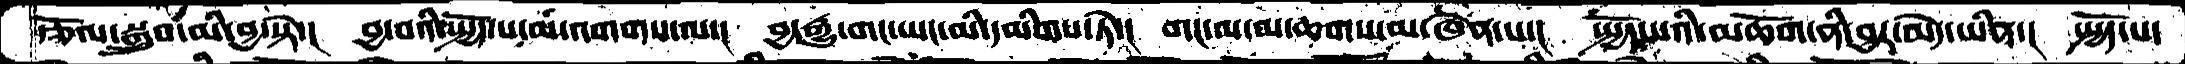རྩོལ་སྒྲུབ་མི་བྱ་སྟེ་།  བྱ་བའི་སྤྱོད་པ་མ་འགགས་ལ་།  བྱ་རྒྱུ་གང་ཡང་མི་དམིགས་ཏེ་།  གང་ལ་མ་ཆགས་མ་ཞེན་པ་།  སྤྱོད་པའི་མཆོག་ནི་བྱར་མེད་ཡིན་།  སྤྱོད་པ་
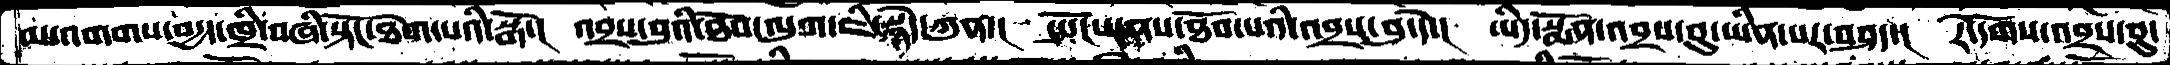མ་འགགས་བདྱད་ཁྲི་བཞི་སྟོང་ཐེག་པའི་སྒོ་།  འབྲས་བུའི་ཐོབ་ལུག་ཇི་སྙེད་ཀུན་།  སྤོངས་ནས་ཐོབ་པའི་འབྲས་བུ་དེ་།  ཡིད་སྨོན་འབྲས་བུ་ཡིན་པར་བཤད་།  རེ་དོགས་འབྲས་བུ་
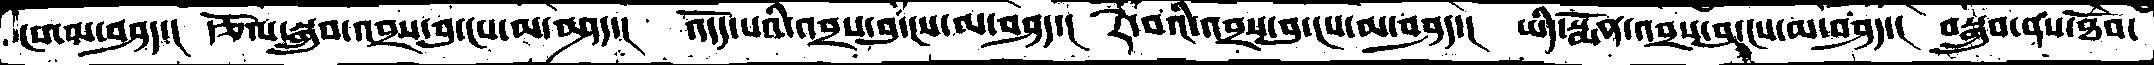ངས་མ་བཤད་།  རྩོལ་སྒྲུབ་འབྲས་བུ་ངས་མ་བཤད་།  འདོད་པའི་འབྲས་བུ་ངས་མ་བཤད་།  རེ་བའི་འབྲས་བུ་ངས་མ་བཤད་།  ཡིད་སྨོན་འབྲས་བུ་ངས་མ་བཤད་།  བསྒྲུབ་ནས་ཐོབ་
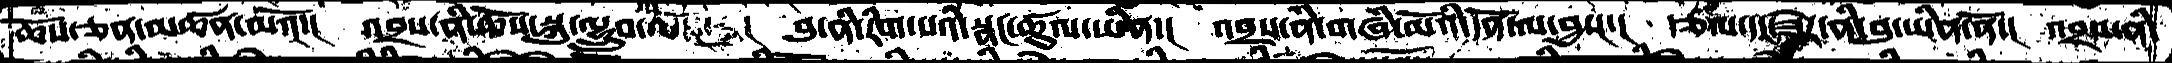ཆོས་ཅན་མཚན་མའོ་།  འབྲས་ནི་ཆོས་སྐུ་ལྷྲུབ་ལ  །  བུ་ནི་རིག་པའི་སྣང་ཚུལ་ཡིན་།  འབྲས་ནི་གཞི་མོའི་དོན་ལ་བྱ་།་།   རྩལ་དང་ཟེར་ནི་བུ་ཡིན་ནོ་།  འབྲས་ནི་
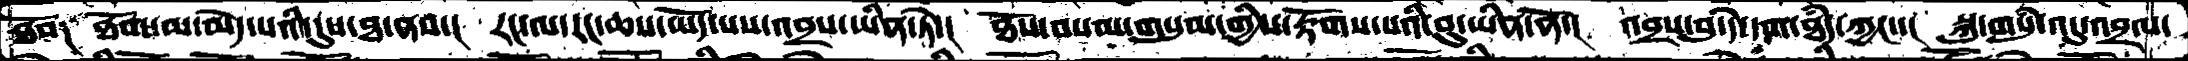ཐོབ༑  ཐོག་མ་མེད་པའི་དུས་ཐ་ནས་།  རང་ལ་རང་ཆས་ཡོད་པས་འབྲས་ཡིན་ཏེ་།  ཐོས་བསམ་གསུམ་གྱིས་རྟོགས་པའི་བུ་ཡིན་ནོ་།  འབྲས་བུ་དེ་དག་ཐདཾ་ཀྱང་་།  སྐུ་གསུཾ་འདུ་འབྲལ་
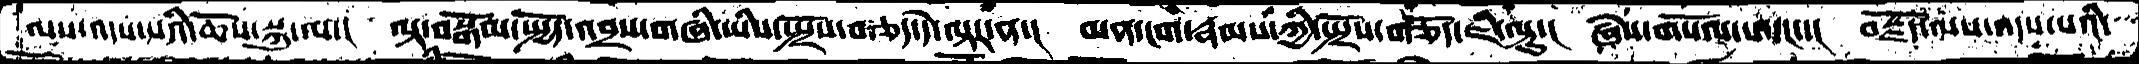ལས་འདས་པའི་ཆོས་སྐུ་ལ་།  ལྟ་བསྒོམ་སྤྱོད་འབྲས་གཞི་ཡིས་སྤྲོས་བཅད་དེ་ལྟར་ན་།  མན་ངག་རྣམས་ཀྱི་སྤྲོས་གཅོད་ཇི་ལྟུ་།  ཞེས་གསོལ་པ་དང་་།  བརྗོད་ལས་འདས་པའི་
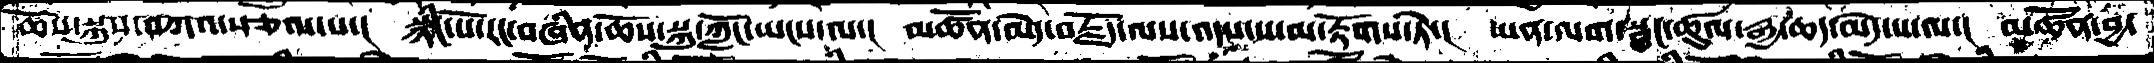ཆོས་སྐུའི་བཀའ་སྩལ་པ་།  སྙིང་པོ་རང་བཞིན་ཆོས་སྐུ་ཀློང་ཡངས་ལ་།  མཚོན་མེད་བརྗོད་ལས་འདས་པ་མ་རྟོགས་ཏེ་།  ཡན་ལག་སྦྱང་ཚུལ་རྒྱ་ཆད་མེད་པ་ལ་།  མཚོན་བྱ་
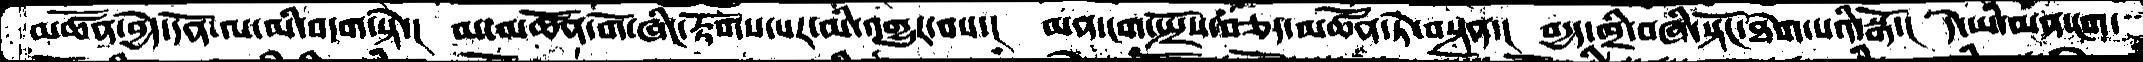མཚོན་བྱེད་དོན་ལ་མི་བདག་སྟེ་།  མ་མཚོན་གོ་ཞིང་རྟོགས་པར་མི་འགྱུར་བས་།  མན་ངག་སྤྲོས་བཅད་མཚོན་ཏེ་བསྟན་།  བདྱད་ཁྲི་བཞི་སྟོང་ཐེག་པའི་སྒོ་།  དེ་ཡི་མན་ངག་
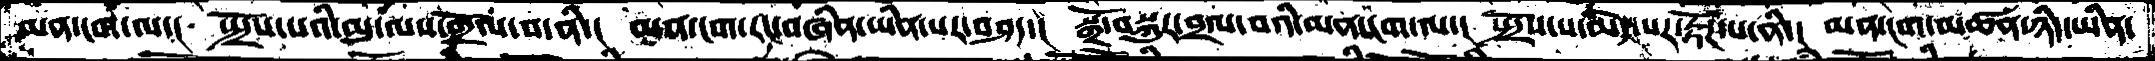མན་ངག་ལ་།  སྤྲོས་པའི་མུ་ལས་གྲོལ་བ་ནི་།  མན་ངག་རང་བཞིན་ཡིན་པར་བཤད་།  སྒྲོ་བསྐུར་བྲལ་བའི་མན་ངག་ལ་།  སྤྲོས་པ་མེད་པར་རྟོཌ་པ་ནི་།  མན་ངག་མཚན་ཉིད་ཡིན་
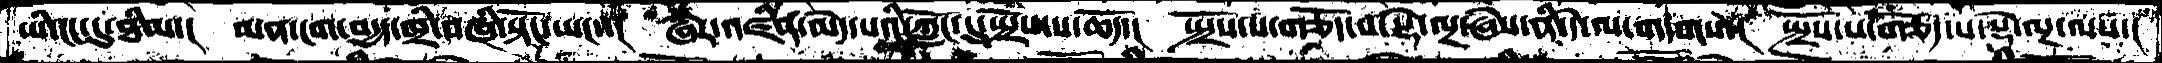ཡི་ངང་དུ་ཐིམ་།   མན་ངག་བདྱད་ཁྲི་བཞི་སྟོང་ཡང་།  ཁེར་འཛིན་མེད་པའི་ཀློང་དུ་སྤྲོས་པ་ཆོད་།  སྤྲོས་པ་གཅོད་པ་སྡེ་ལྔ་ཞེས་ནི་དེ་ལ་གདགས་།  སྤྲོས་པ་གཅོད་པ་སྡེ་ལྔ་ལས་།
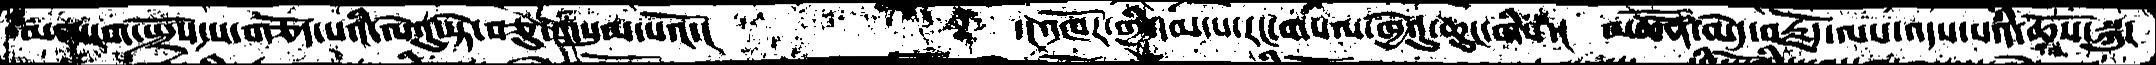མན་ངག་སྤྲོས་པ་གཅོད་པའི་ལེའུ་སྟེ་བཅུ་གསུམ་པའོ་།    ་།འཁོར་གྱི་དམ་པ་རང་གསལ་ཁྱེའུ་ཆུང་གིས་།  མཚོན་མེད་བརྗོད་ལས་འདས་པའི་ཆོས་སྐུ་
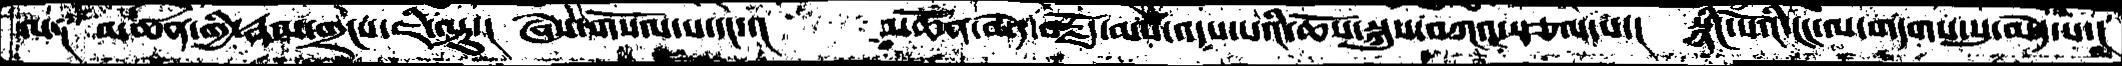ལ༑  མཚན་གྱི་རྣམ་གྲངས་ཇི་ལྟུ་།  ཞེས་གསོལ་པ་དང་།   མཚོན་མེད་བརྗོད་ལས་འདས་པའི་ཆོས་སྐུས་བཀའ་སྩལ་པ་།  སྙིང་པོའི་ངང་ལ་གདགས་སུ་མེད་པ་།
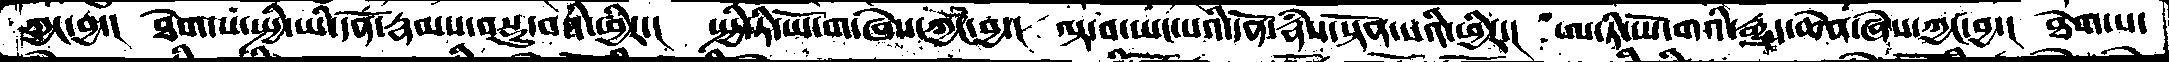ཀྱང་བྱ་།   ཐེག་པ་སྤྱི་ཡི་དོན་རྣམས་བསྡུ་བའི་ཕྱིར་།  སྤྱི་ཏེ་ཡོ་ག་ཞེས་ཀྱང་བྱ་།  ལྟ་བ་ཡང་པའི་དོན་རྣཾས་སྟོན་པའི་ཕྱིར་།  ཨ་ཏི་ཡོ་གའི་རྒྱུ་ཆེན་ཞེས་ཀྱང་བྱ་།  ཐེག་པ་
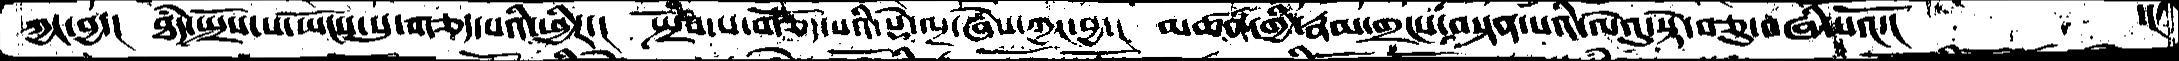ཀྱང་བྱ་།  ཐཾད་སྤྲོས་པ་ཡོངས་སུ་གཅད་པའི་ཕྱིར་།  སྤྲོས་པ་གཅོད་པའི་སྡེ་ལྔ་ཞེས་ཀྱང་བྱ་།  མཚན་གྱི་རྣམ་གྲངས་བསྟན་པའི་ལེའུ་སྟེ་བཅུ་བཞི་པའོ་།    ་།
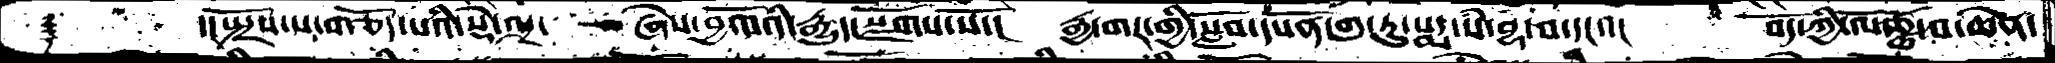༈     ་།སྤྲོས་པ་གཅོད་པའི་སྡེ་ལྔ་   ཞེས་བྱ་བའི་རྒྱུད་སྫོགས་སོ་།  རྒྱ་གར་གྱི་སློབ་དཔོན་གུ་རུ་སདྨ་སཾ་བྷ་བ་དང་་།     བོད་ཀྱི་ལོ་ཙྪ་བ་ཆེན་
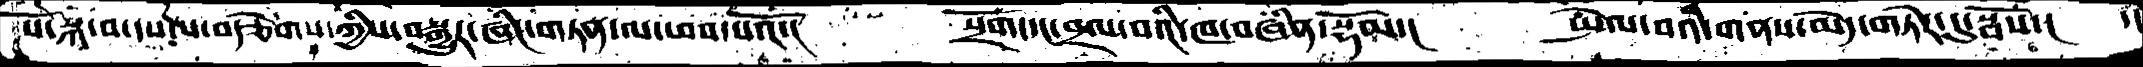པོ་སྐ་བ་དཔལ་བརྩེགས་ཀྱིས་བསྒྱུར་ཞིང་གཏན་ལ་ཕབ་པའོ་།     སྲོག་དང་བྲལ་བའི་ཁ་བཞིན་སྡོམ་།      སྤེལ་བའི་གནས་མེད་གཏེར་དུ་སྦསོ་།   ་།
